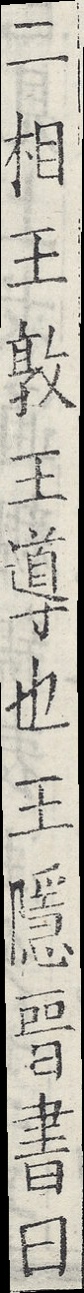二相王敦王導也王隱晉書曰
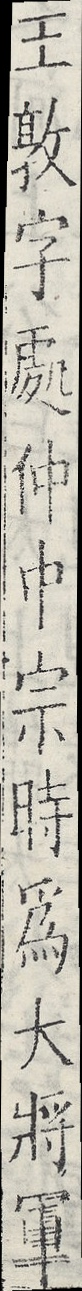王敦字處仲中宗時為大將軍
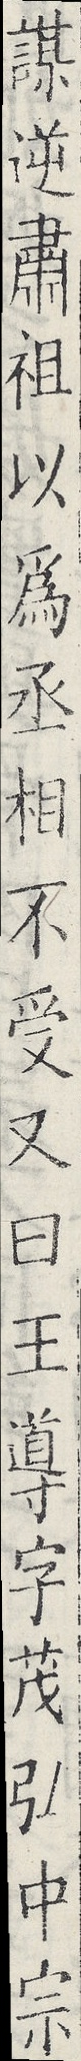謀逆肅祖以為丞相不受又曰王導字茂弘中宗
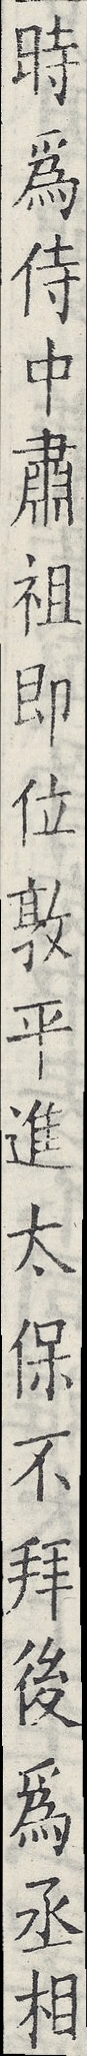時為侍中肅祖即位敦平進太保不拜後為丞相
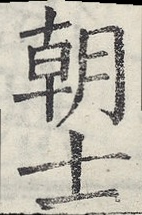朝士
